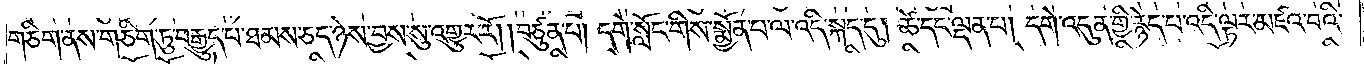གཅིག་ནས་གཅིག་ཏུ་བརྒྱུད་པ་ཐམས་ཅད་ཉེས་བྱས་སུ་འགྱུར་རོ། །བཙུན་པ། དགེ་སློང་གིས་སྨྱོན་པ་ལ་འདི་སྐད་དུ། ཚེ་དང་ལྡན་པ། དགེ་འདུན་གྱི་རྙེད་པ་འདི་ལྟར་མཛའ་བའི་
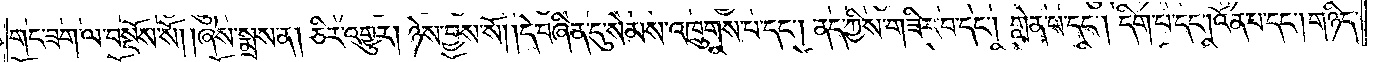གང་ཟག་ལ་བསྔོས་སོ། །ཞེས་སྨྲས་ན། ཅིར་འགྱུར། ཉེས་བྱས་སོ། །དེ་བཞིན་དུ་སེམས་འཁྲུགས་པ་དང༌། ནད་ཀྱིས་གཟིར་བ་དང༌། གླེན་པ་དང༌། དིག་པ་དང༌། འོན་པ་དང༌། གཉིད་
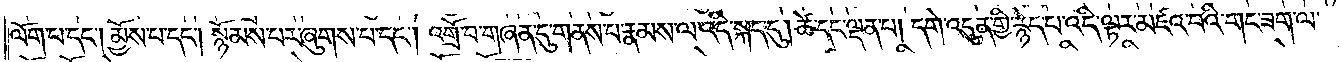ལོག་པ་དང༌། མྱོས་པ་དང༌། སྙོམས་པར་ཞུགས་པ་དང༌། འགྲོ་བ་གཞན་དུ་གནས་པ་རྣམས་ལ་འདི་སྐད་དུ། ཚེ་དང་ལྡན་པ། དགེ་འདུན་གྱི་རྙེད་པ་འདི་ལྟར་མཛའ་བའི་གང་ཟག་ལ་
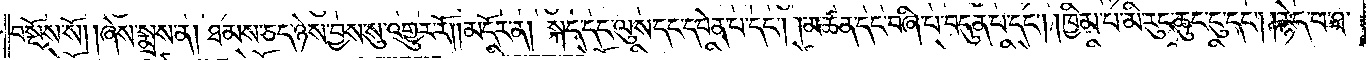བསྔོས་སོ། །ཞེས་སྨྲས་ན། ཐམས་ཅད་ཉེས་བྱས་སུ་འགྱུར་རོ། །མདོར་ན། སྐད་དང་ལུས་དང་དབེན་པ་དང༌། །མཚན་དང་བཞི་པ་བདུན་པ་དང༌། ཁྱིམ་པ་མི་རུང་ཆུང་ངུ་དང༌། །རྙེད་པ་ཐ་
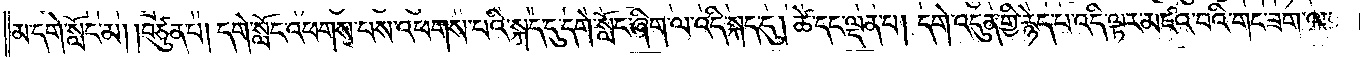མ་དགེ་སློང་མ། །བཙུན་པ། དགེ་སློང་འཕགས་པས་འཕགས་པའི་སྐད་དུ་དགེ་སློང་ཞིག་ལ་འདི་སྐད་དུ། ཚེ་དང་ལྡན་པ། དགེ་འདུན་གྱི་རྙེད་པ་འདི་ལྟར་མཛའ་བའི་གང་ཟག་ལ་
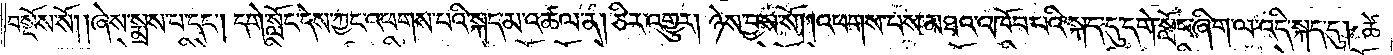བསྔོས་སོ། །ཞེས་སྨྲས་པ་དང༌། དགེ་སློང་དེས་ཀྱང་འཕགས་པའི་སྐད་མ་འཚལ་ན། ཅིར་འགྱུར། ཉེས་བྱས་སོ། །འཕགས་པས་མཐའ་འཁོབ་པའི་སྐད་དུ་དགེ་སློང་ཞིག་ལ་འདི་སྐད་དུ། ཚེ་
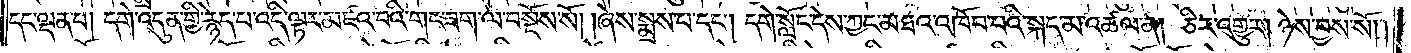དང་ལྡན་པ། དགེ་འདུན་གྱི་རྙེད་པ་འདི་ལྟར་མཛའ་བའི་གང་ཟག་ལ་བསྔོས་སོ། །ཞེས་སྨྲས་པ་དང༌། དགེ་སློང་དེས་ཀྱང་མཐའ་འཁོབ་པའི་སྐད་མ་འཚལ་ན། ཅིར་འགྱུར། ཉེས་བྱས་སོ། །
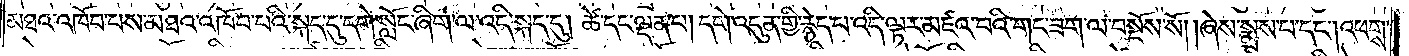མཐའ་འཁོབ་པས་མཐའ་འཁོབ་པའི་སྐད་དུ་དགེ་སློང་ཞིག་ལ་འདི་སྐད་དུ། ཚེ་དང་ལྡན་པ། དགེ་འདུན་གྱི་རྙེད་པ་འདི་ལྟར་མཛའ་བའི་གང་ཟག་ལ་བསྔོས་སོ། །ཞེས་སྨྲས་པ་དང༌། འཕགས་
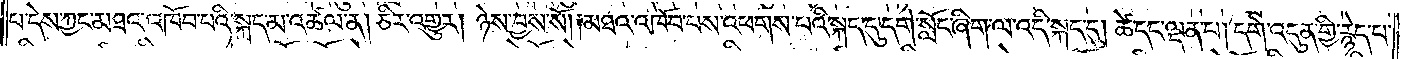པ་དེས་ཀྱང་མཐའ་འཁོབ་པའི་སྐད་མ་འཚལ་ན། ཅིར་འགྱུར། ཉེས་བྱས་སོ། །མཐའ་འཁོབ་པས་འཕགས་པའི་སྐད་དུ་དགེ་སློང་ཞིག་ལ་འདི་སྐད་དུ། ཚེ་དང་ལྡན་པ། དགེ་འདུན་གྱི་རྙེད་པ་
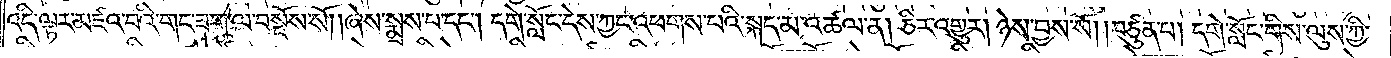འདི་ལྟར་མཛའ་བའི་གང་ཟག་ལ་བསྔོས་སོ། །ཞེས་སྨྲས་པ་དང༌། དགེ་སློང་དེས་ཀྱང་འཕགས་པའི་སྐད་མ་འཚལ་ན། ཅིར་འགྱུར། ཉེས་བྱས་སོ། །བཙུན་པ། དགེ་སློང་གིས་ལུས་ཀྱི་
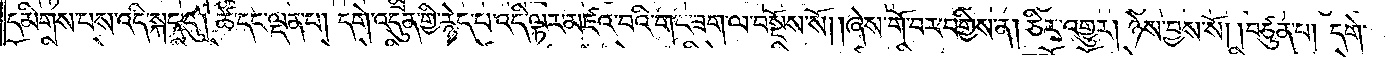དམིགས་པས་འདི་སྐད་དུ། ཚེ་དང་ལྡན་པ། དགེ་འདུན་གྱི་རྙེད་པ་འདི་ལྟར་མཛའ་བའི་གང་ཟག་ལ་བསྔོས་སོ། །ཞེས་གོ་བར་བགྱིས་ན། ཅིར་འགྱུར། ཉེས་བྱས་སོ། །བཙུན་པ། དགེ་
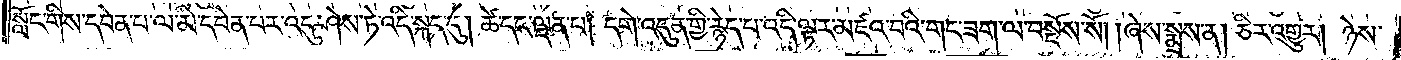སློང་གིས་དབེན་པ་ལ་མི་དབེན་པར་འདུ་ཤེས་ཏེ་འདི་སྐད་དུ། ཚེ་དང་ལྡན་པ། དགེ་འདུན་གྱི་རྙེད་པ་འདི་ལྟར་མཛའ་བའི་གང་ཟག་ལ་བསྔོས་སོ། །ཞེས་སྨྲས་ན། ཅིར་འགྱུར། ཉེས་
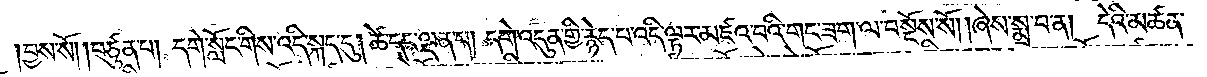།བྱས་སོ། །བཙུན་པ། དགེ་སློང་གིས་འདི་སྐད་དུ། ཚེ་དང་ལྡན་པ། དགེ་འདུན་གྱི་རྙེད་པ་འདི་ལྟར་མཛའ་བའི་གང་ཟག་ལ་བསྔོས་སོ། །ཞེས་སྨྲ་བ་ན། དེའི་མཚན་
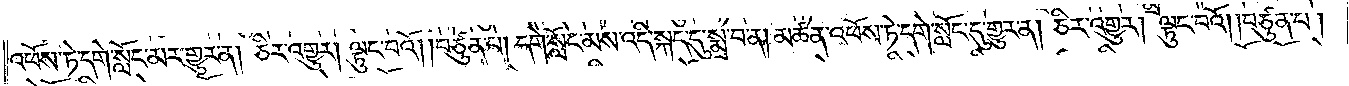འཕོས་ཏེ་དགེ་སློང་མར་གྱུར་ན། ཅིར་འགྱུར། ལྟུང་བའོ། །བཙུན་པ། དགེ་སློང་མས་འདི་སྐད་དུ་སྨྲ་བ་ན། མཚན་འཕོས་ཏེ་དགེ་སློང་དུ་གྱུར་ན། ཅིར་འགྱུར། ལྟུང་བའོ། །བཙུན་པ།
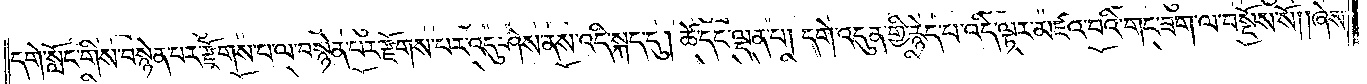དགེ་སློང་གིས་བསྙེན་པར་རྫོགས་པ་ལ་བསྙེན་པར་རྫོགས་པར་འདུ་ཤེས་ནས་འདི་སྐད་དུ། ཚེ་དང་ལྡན་པ། དགེ་འདུན་གྱི་རྙེད་པ་འདི་ལྟར་མཛའ་བའི་གང་ཟག་ལ་བསྔོས་སོ། །ཞེས་
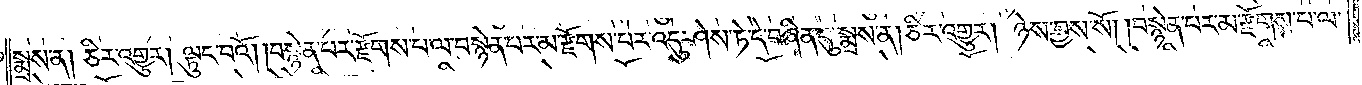སྨྲས་ན། ཅིར་འགྱུར། ལྟུང་བའོ། །བསྙེན་པར་རྫོགས་པ་ལ་བསྙེན་པར་མ་རྫོགས་པར་འདུ་ཤེས་ཏེ་དེ་བཞིན་དུ་སྨྲས་ན། ཅིར་འགྱུར། ཉེས་བྱས་སོ། །བསྙེན་པར་མ་རྫོགས་པ་ལ་
